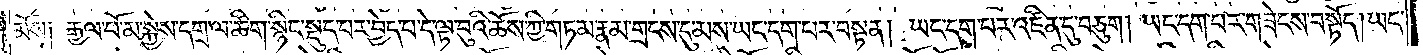མོས༑ རྒྱལ་པོ་མ་སྐྱེས་དགྲ་ལ་ཚིག་སྙིང་སྡུད་པར་བྱེད་པ་དེ་ལྟ་བུའི་ཆོས་ཀྱི་གཏམ་རྣམ་གྲངས་དུ་མས་ཡང་དག་པར་བསྟན། ཡང་དག་པར་འཛིན་དུ་བཅུག །ཡང་དག་པར་གཟེངས་བསྟོད། ཡང་
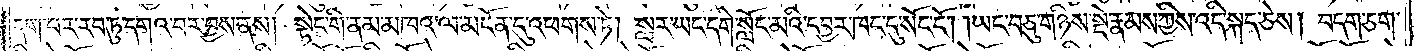དག་པར་རབ་ཏུ་དགའ་བར་བྱས་ནས། སྟེང་གི་ནམ་མཁའ་ལ་མངོན་དུ་འཕགས་ཏེ། སླར་ཡང་དགེ་སློང་མའི་དབྱར་ཁང་དུ་སོང་ངོ༌། །ཡང་བཅུ་གཉིས་སྡེ་རྣམས་ཀྱིས་འདི་སྐད་ཅེས། བདག་ཅག་
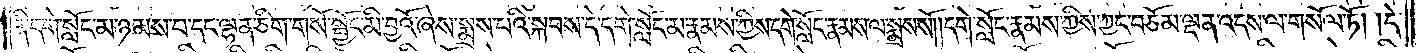ནི་དགེ་སློང་མ་ཉམས་པ་དང་ལྷན་ཅིག་གསོ་སྦྱོང་མི་བྱའོ་ཞེས་སྨྲས་པའི་སྐབས་དེ་དགེ་སློང་མ་རྣམས་ཀྱིས་དགེ་སློང་རྣམས་ལ་སྨྲས་སོ། །དགེ་སློང་རྣམས་ཀྱིས་ཀྱང་བཅོམ་ལྡན་འདས་ལ་གསོལ་ཏོ། །དེ་
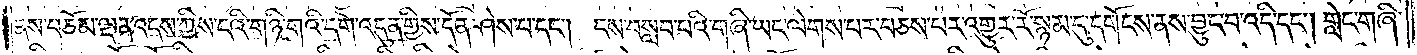ནས་བཅོམ་ལྡན་འདས་ཀྱིས་ངའི་གཉི་གའི་དགེ་འདུན་གྱིས་དོན་ཤེས་པ་དང༌། ངས་བསླབ་པའི་གཞི་ཡང་ལེགས་པར་བཅས་པར་འགྱུར་རོ་སྙམ་དུ་དགོངས་ནས་བྱུང་བ་འདི་དང༌། གླེང་གཞི་
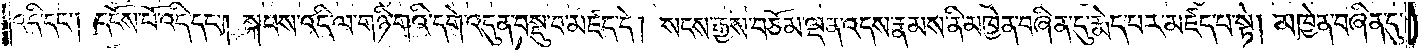འདི་དང༌། དངོས་པོ་འདི་དང༌། སྐབས་འདི་ལ་གཉི་གའི་དགེ་འདུན་བསྡུ་བ་མཛད་དེ། སངས་རྒྱས་བཅོམ་ལྡན་འདས་རྣམས་ནི་མཁྱེན་བཞིན་དུ་རྨེད་པར་མཛད་པ་སྟེ། མཁྱེན་བཞིན་དུ་
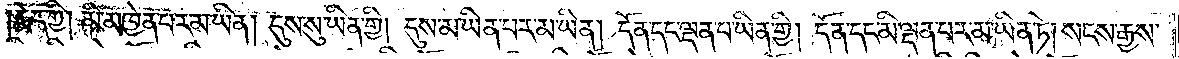རྨེད་ཀྱི། མི་མཁྱེན་པར་མ་ཡིན། དུས་སུ་ཡིན་གྱི། དུས་མ་ཡིན་པར་མ་ཡིན། དོན་དང་ལྡན་པ་ཡིན་གྱི། དོན་དང་མི་ལྡན་པར་མ་ཡིན་ཏེ། སངས་རྒྱས་
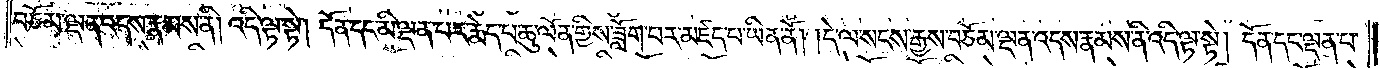བཅོམ་ལྡན་འདས་རྣམས་ནི། འདི་ལྟ་སྟེ། དོན་དང་མི་ལྡན་པར་རྨེད་པ་ཆུ་ལོན་གྱིས་ཟློག་པར་མཛད་པ་ཡིན་ནོ། །དེ་ལ་སངས་རྒྱས་བཅོམ་ལྡན་འདས་རྣམས་ནི་འདི་ལྟ་སྟེ། དོན་དང་ལྡན་པ་
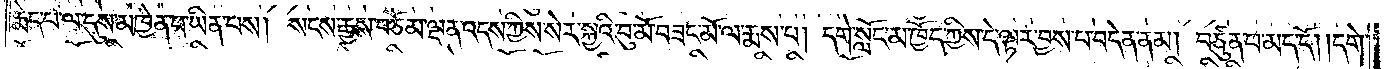རྨེད་པ་ལ་དུས་མཁྱེན་པ་ཡིན་པས། སངས་རྒྱས་བཅོམ་ལྡན་འདས་ཀྱིས་སེར་སྐྱའི་བུ་མོ་བཟང་མོ་ལ་རྨས་པ། དགེ་སློང་མ་ཁྱོད་ཀྱིས་དེ་ལྟར་བྱས་པ་བདེན་ནམ། བཙུན་པ་མད་དོ། །དགེ་
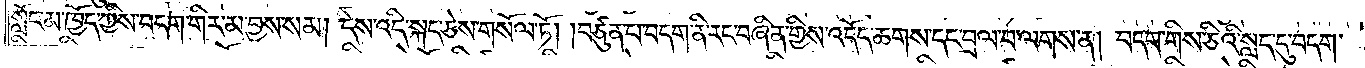སློང་མ་ཁྱོད་ཀྱིས་བདག་གིར་མ་བྱས་སམ། དེས་འདི་སྐད་ཅེས་གསོལ་ཏོ། །བཙུན་པ་བདག་ནི་རང་བཞིན་གྱིས་འདོད་ཆགས་དང་བྲལ་བ་ལགས་ན། བདག་གིས་ཅིའི་སླད་དུ་བདག་
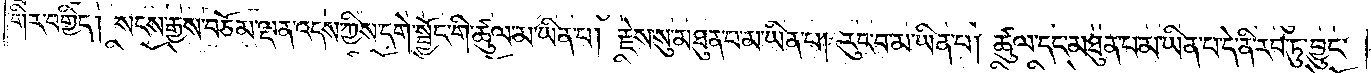གིར་བགྱིད། སངས་རྒྱས་བཅོམ་ལྡན་འདས་ཀྱིས་དགེ་སྦྱོང་གི་ཚུལ་མ་ཡིན་པ། རྗེས་སུ་མཐུན་པ་མ་ཡིན་པ། རུང་བ་མ་ཡིན་པ། ཚུལ་དང་མཐུན་པ་མ་ཡིན་པ་དེ་ནི་རབ་ཏུ་བྱུང་
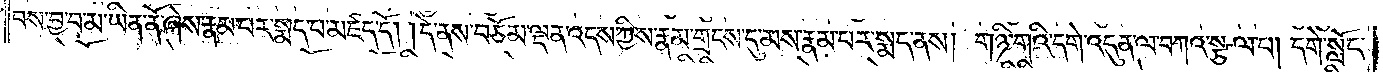བས་བྱ་བ་མ་ཡིན་ནོ་ཞེས་རྣམ་པར་སྨད་པ་མཛད་དོ། །དེ་ནས་བཅོམ་ལྡན་འདས་ཀྱིས་རྣམ་གྲངས་དུ་མས་རྣམ་པར་སྨད་ནས། གཉི་གའི་དགེ་འདུན་ལ་བཀའ་སྩལ་པ། དགེ་སློང་
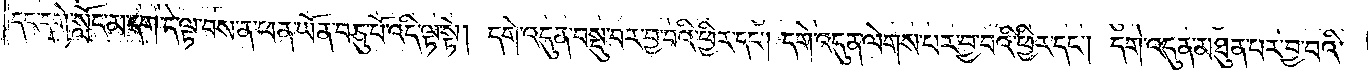དང་དགེ་སློང་མ་དག་དེ་ལྟ་བས་ན་ཕན་ཡོན་བཅུ་པོ་འདི་ལྟ་སྟེ། དགེ་འདུན་བསྡུ་བར་བྱ་བའི་ཕྱིར་དང༌། དགེ་འདུན་ལེགས་པར་བྱ་བའི་ཕྱིར་དང༌། དགེ་འདུན་མཐུན་པར་བྱ་བའི་
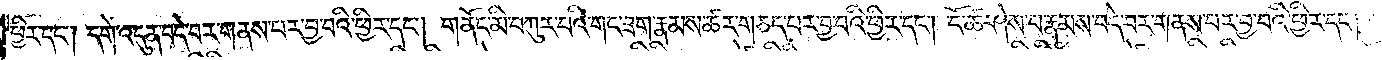ཕྱིར་དང༌། དགེ་འདུན་བདེ་བར་གནས་པར་བྱ་བའི་ཕྱིར་དང༌། གནོད་མི་བཀུར་བའི་གང་ཟག་རྣམས་ཚར་གཅད་པར་བྱ་བའི་ཕྱིར་དང༌། ངོ་ཚ་ཤེས་པ་རྣམས་བདེ་བར་གནས་པར་བྱ་བའི་ཕྱིར་དང༌།
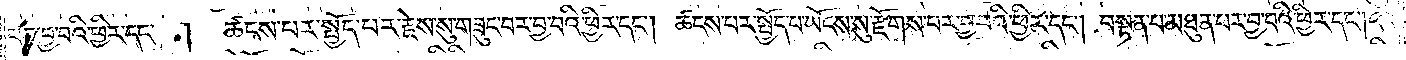པར་བྱ་བའི་ཕྱིར་དང༌། ཚངས་པར་སྤྱོད་པར་རྗེས་སུ་གཟུང་བར་བྱ་བའི་ཕྱིར་དང༌། ཚངས་པར་སྤྱོད་པ་ཡོངས་སུ་རྫོགས་པར་བྱ་བའི་ཕྱིར་དང༌། བསྟན་པ་མཐུན་པར་བྱ་བའི་ཕྱིར་དང༌། ངའི་
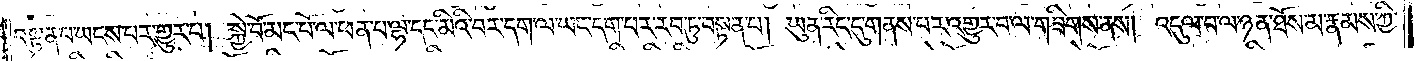བསྟན་པ་ཡངས་པར་གྱུར་པ། སྐྱེ་བོ་མང་པོ་ལ་ཕན་པ་ལྷ་དང་མིའི་བར་དག་ལ་ཡང་དག་པར་རབ་ཏུ་བསྟན་པ། ཡུན་རིང་དུ་གནས་པར་འགྱུར་བ་ལ་གཟིགས་ནས། འདུལ་བ་ལ་ཉན་ཐོས་མ་རྣམས་ཀྱི་
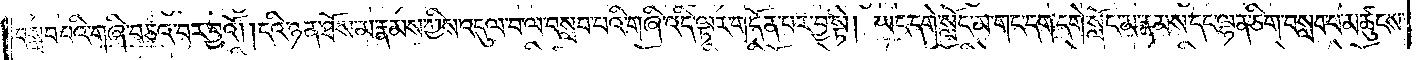བསླབ་པའི་གཞི་བཅའ་བར་བྱའོ། །ངའི་ཉན་ཐོས་མ་རྣམས་ཀྱིས་འདུལ་བ་ལ་བསླབ་པའི་གཞི་འདི་ལྟར་གདོན་པར་བྱ་སྟེ། ཡང་དགེ་སློང་མ་གང་དག་དགེ་སློང་མ་རྣམས་དང་ལྷན་ཅིག་བསླབ་པ་མཚུངས་
